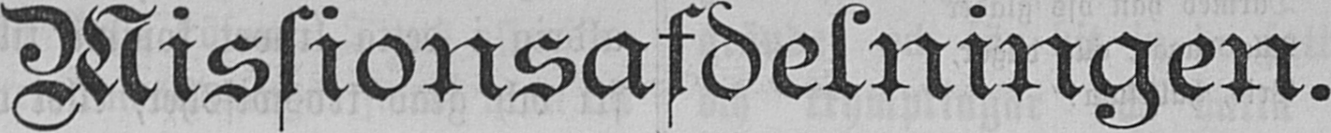Missionsafdelningen.
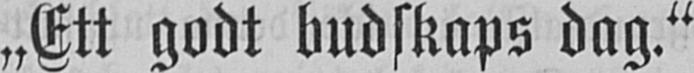„Ett godt budskaps dag."
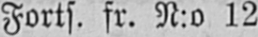Forts. fr. N:o 12
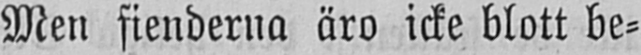Men fienderna äro icke blott be-
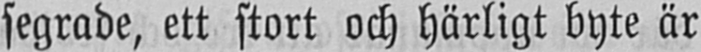segrade, ett stort och härligt byte är
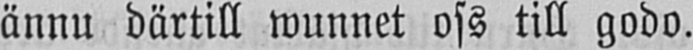ännu därtill wunnet oss till godo.
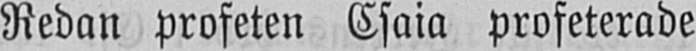Redan profeten Csaia profeterade
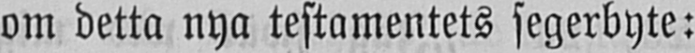om detta nya testamentets segerbyte:
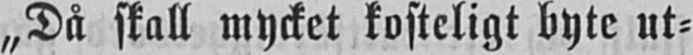„Då skall mycket kosteligt byte ut-
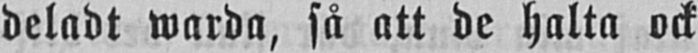deladt warda, så att de halta ock
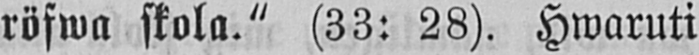röfwa skola." (33: 28). Hwaruti
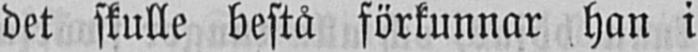det skulle bestå förkunnar han i
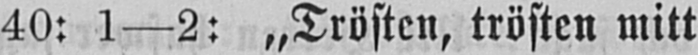40: 1—2: „Trösten, trösten mitt
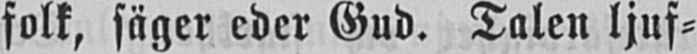folk, säger eder Gud. Talen ljuf-
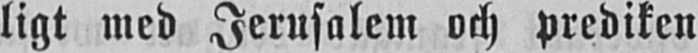ligt med Jerusalem och prediken
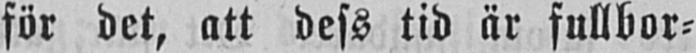för det, att dess tid är fullbor-
